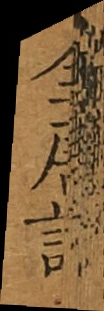全唐詩
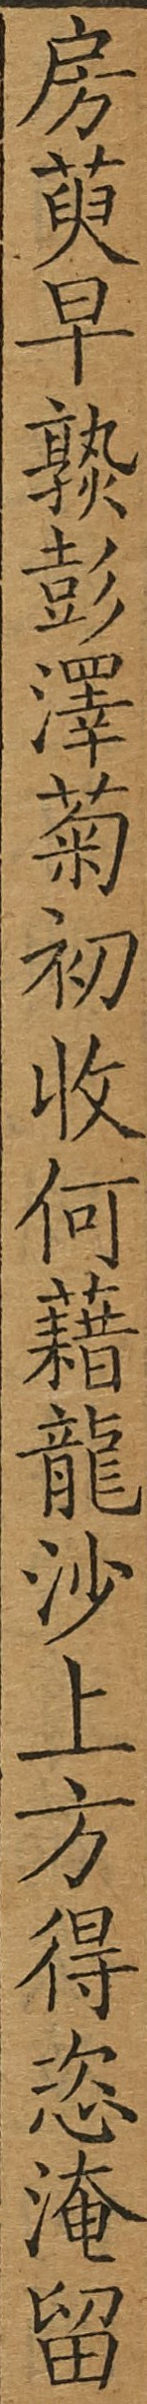房萸早熟彭澤菊初收何藉龍沙上方得恣淹留
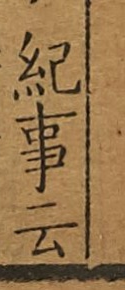紀事云
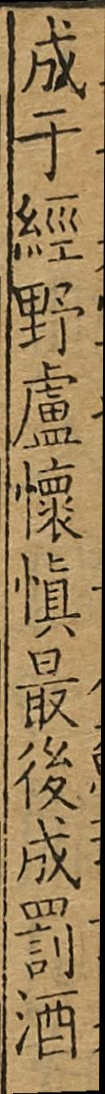成于經野盧懷傎最後成罰酒
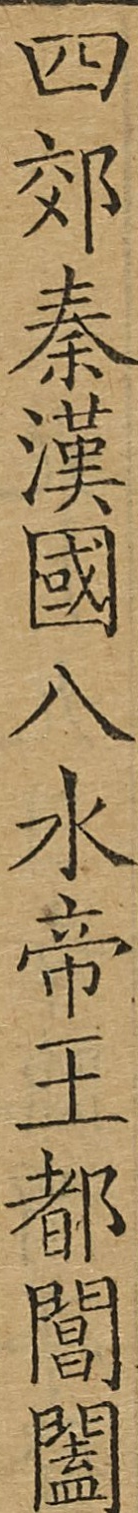四郊秦漢國八水帝王都閶闔
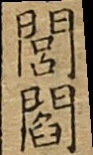閭閻
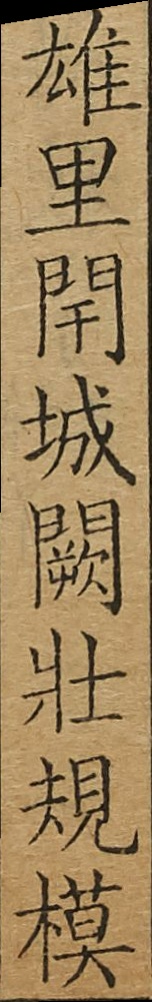雄里閈城闕壯規模
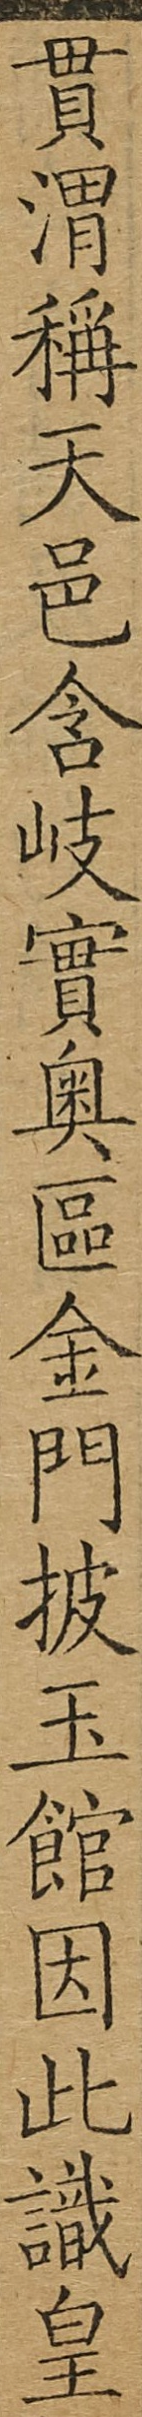貫渭稱天邑含岐實奧區金門披玉館因此識皇
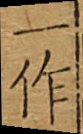一作
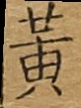黃
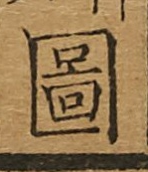圖
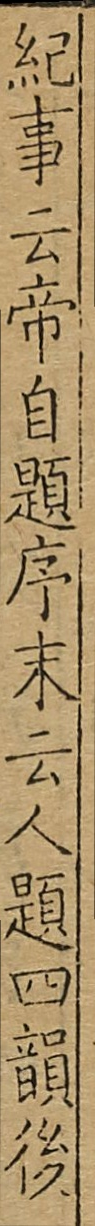紀事云帝自題序末云人題四韻後
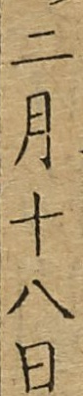二月十八日
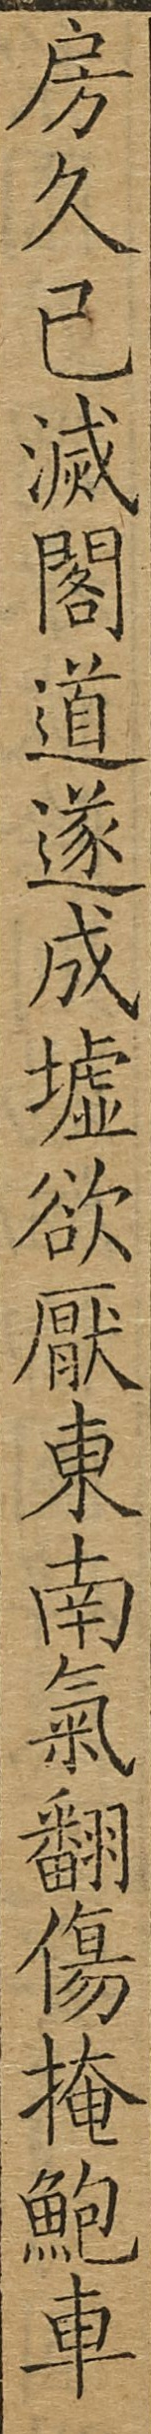房久已滅閣道遂成墟欲厭東南氣翻傷掩鮑車
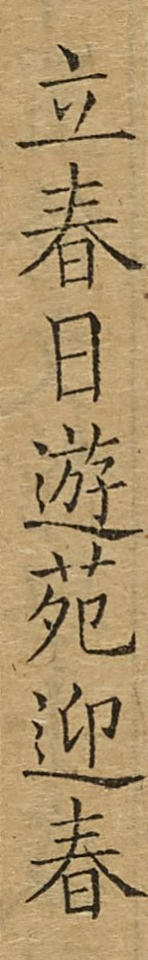立春日遊苑迎春
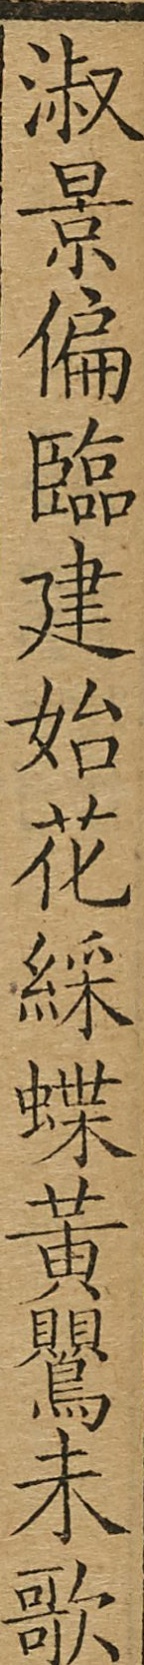淑景偏臨建始花綵蝶黄鶯未歌
